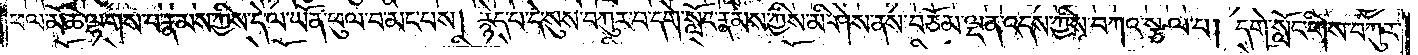ཕལ་མོ་ཆེ་ལྷགས་པ་རྣམས་ཀྱིས་དེ་ལ་ཡོན་ཕུལ་བ་མང་པས། རྙེད་པ་དེ་སུས་བཀུར་བ་དགེ་སློང་རྣམས་ཀྱིས་མི་ཤེས་ནས་བཅོམ་ལྡན་འདས་ཀྱིས་བཀའ་སྩལ་པ། དགེ་སློང་གིས་བཀུར་
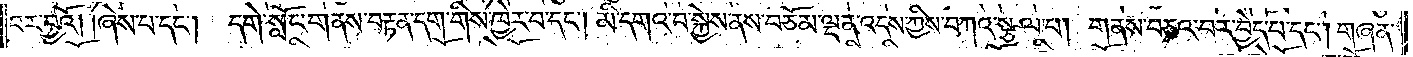བར་བྱའོ། །ཞེས་པ་དང༌། དགེ་སློང་གནས་བརྟན་དག་གིས་ཁྱེར་བ་དང༌། མི་དགའ་བ་སྐྱེས་ནས་བཅོམ་ལྡན་འདས་ཀྱིས་བཀའ་སྩལ་པ། གནས་བཅའ་བར་བྱེད་པ་དང༌། གཞན་
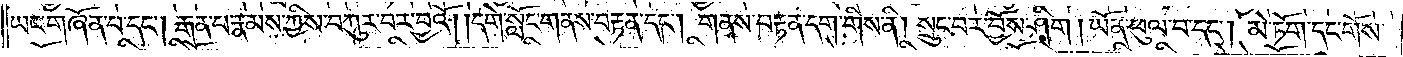ཡང་གཞོན་པ་དང༌། རྒན་པ་རྣམས་ཀྱིས་བཀུར་བར་བྱའོ། །དགེ་སློང་གནས་བརྟན་དང༌། གནས་བརྟན་དག་གིས་ནི། སྲུང་བར་བྱོས་ཤིག །ཡོན་ཕུལ་བ་དང༌། མེ་ཏོག་དང་གོས་
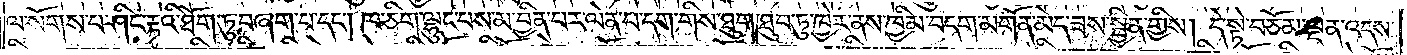ལ་སོགས་པ་ཤིང་རྟའི་ཐོག་ཏུ་བཞག་པ་དང༌། ཁ་ཅིག་ལྷུང་པས་མ་བྱིན་པར་ལེན་པ་དག་གིས་ཐུག་ཐུབ་ཏུ་ཁྱེར་ནས་ཁྱིམ་བདག་མགོན་མེད་ཟས་སྦྱིན་གྱིས། དེ་སྟེ་བཅོམ་ལྡན་འདས་
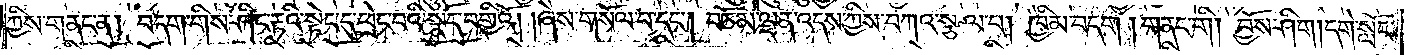ཀྱིས་གནང་ན། བདག་གིས་ཤིང་རྟའི་སྟེང་དུ་ཕྲེང་བའི་སྣོད་བགྱིའོ། །ཞེས་གསོལ་པ་དང༌། བཅོམ་ལྡན་འདས་ཀྱིས་བཀའ་སྩལ་པ། ཁྱིམ་བདག །གནང་གི། བྱོས་ཤིག །དགེ་སློང་
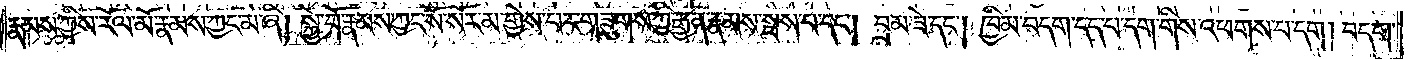རྣམས་ཀྱིས་རོལ་མོ་རྣམས་ཀྱང་མ་ཞི། སྐྱེ་བོ་རྣམས་ཀྱང་སོ་སོར་མ་གྱེས་པར་གཟུགས་ཀྱི་རྒྱན་རྣམས་སྦས་པ་དང༌། བྲམ་ཟེ་དང༌། ཁྱིམ་བདག་དད་པ་དག་གིས་འཕགས་པ་དག། བདག་
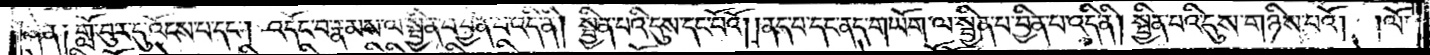ཞེ་ན༑ གློ་བུར་དུ་འོངས་པ་དང༌། འདོང་བ་རྣམས་ལ་སྦྱིན་པ་བྱིན་པ་འདི་ནི། སྦྱིན་པའི་དུས་དང་པོའོ། །ནད་པ་དང་ནད་གཡོག་ལ་སྦྱིན་པ་བྱིན་པ་འདི་ནི། སྦྱིན་པའི་དུས་གཉིས་པའོ། །ལོ་
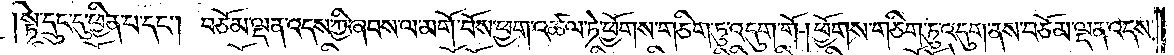སྟེ་དྲུང་དུ་ཕྱིན་པ་དང༌། བཅོམ་ལྡན་འདས་ཀྱི་ཞབས་ལ་མགོ་བོས་ཕྱག་འཚལ་ཏེ་ཕྱོགས་གཅིག་ཏུ་འདུག་གོ །ཕྱོགས་གཅིག་ཏུ་འདུག་ནས་བཅོམ་ལྡན་འདས་
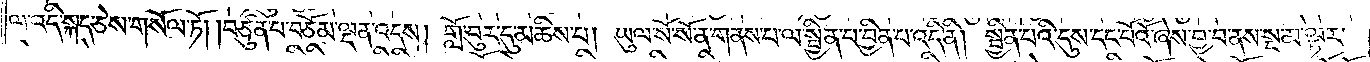ལ་འདི་སྐད་ཅེས་གསོལ་ཏོ། །བཙུན་པ་བཅོམ་ལྡན་འདས། གློ་བུར་དུ་མཆིས་པ། ཡུལ་སོ་སོ་ན་གནས་པ་ལ་སྦྱིན་པ་བྱིན་པ་འདི་ནི། སྦྱིན་པའི་དུས་དང་པོའོ་ཞེས་བྱ་བ་ནས་སྔ་མ་ལྟར་
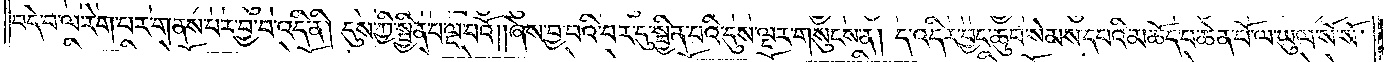བདེ་བ་ལ་རེག་པར་གནས་པར་བྱ་བ་འདི་ནི། དུས་ཀྱི་སྦྱིན་པ་ལྔ་པའོ། །ཞེས་བྱ་བའི་བར་དུ་སྦྱིན་པའི་དུས་ལྔར་གསུངས་ན། ད་འདིར་བྱང་ཆུབ་སེམས་དཔའི་མཆོད་པ་ཆེན་པོ་ལ་ཡུལ་སོ་སོ་
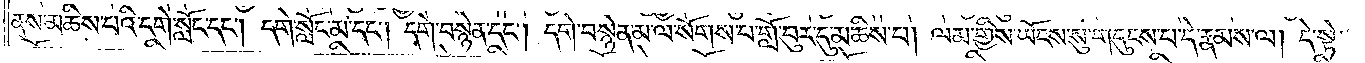ནས་མཆིས་པའི་དགེ་སློང་དང༌། དགེ་སློང་མ་དང༌། དགེ་བསྙེན་དང༌། དགེ་བསྙེན་མ་ལ་སོགས་པ་གློ་བུར་དུ་མཆིས་པ། ལམ་གྱིས་ཡོངས་སུ་གདུངས་པ་དེ་རྣམས་ལ། དེ་སྟེ།
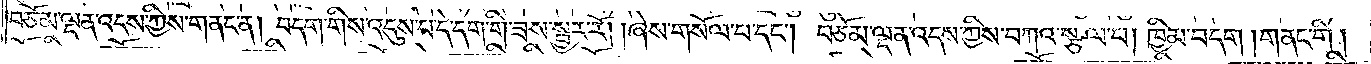བཅོམ་ལྡན་འདས་ཀྱིས་གནང་ན། བདག་གིས་འདུས་པ་དེ་དག་གི་ཟས་སྦྱར་རོ། །ཞེས་གསོལ་པ་དང༌། བཅོམ་ལྡན་འདས་ཀྱིས་བཀའ་སྩལ་པ། ཁྱིམ་བདག །གནང་གི །
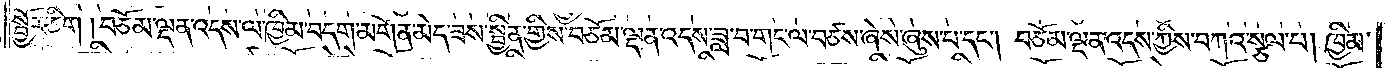སྦྱོར་ཅིག །བཅོམ་ལྡན་འདས་ལ་ཁྱིམ་བདག་མགོན་མེད་ཟས་སྦྱིན་གྱིས་བཅོམ་ལྡན་འདས་ཟླ་བ་གང་ལ་བཙས་ཞེས་ཞུས་པ་དང༌། བཅོམ་ལྡན་འདས་ཀྱིས་བཀའ་སྩལ་པ། ཁྱིམ་
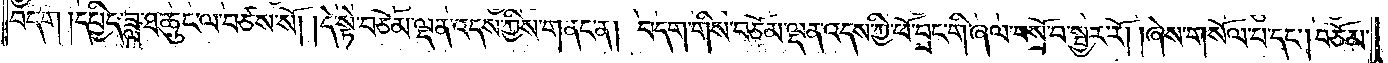བདག །དཔྱིད་ཟླ་ཐ་ཆུང་ལ་བཙས་སོ། །དེ་སྟེ་བཅོམ་ལྡན་འདས་ཀྱིས་གནང་ན། བདག་གིས་བཅོམ་ལྡན་འདས་ཀྱི་ཕོ་བྲང་གི་ཞལ་བསྲོ་བ་སྦྱར་རོ། །ཞེས་གསོལ་པ་དང༌། བཅོམ་
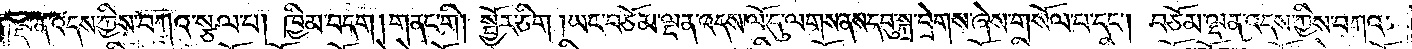ལྡན་འདས་ཀྱིས་བཀའ་སྩལ་པ། ཁྱིམ་བདག །གནང་གི། སྦྱོར་ཅིག །ཡང་བཅོམ་ལྡན་འདས་ལོ་དུ་ལགས་ནས་དབུ་སྐྲ་བྲེགས་ཞེས་གསོལ་པ་དང༌། བཅོམ་ལྡན་འདས་ཀྱིས་བཀའ་
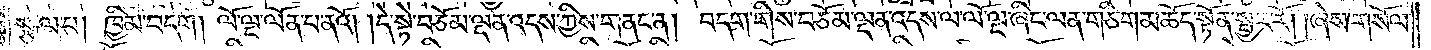སྩལ་པ། ཁྱིམ་བདག །ལོ་ལྔ་ལོན་པ་ནའོ། །དེ་སྟེ་བཅོམ་ལྡན་འདས་ཀྱིས་གནང་ན། བདག་གིས་བཅོམ་ལྡན་འདས་ལ་ལོ་ལྔ་ཞིང་ལན་གཅིག་མཆོད་སྟོན་སྦྱར་རོ། །ཞེས་གསོལ་
